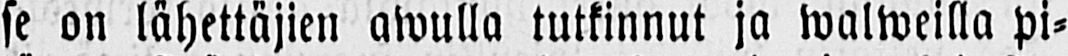se on lähettäjien awulla tutkinnut ja walweilla pi-
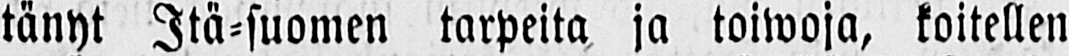tänyt Itä-suomen tarpeita ja toiwoja, koitellen
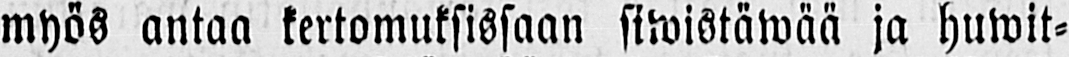myös antaa kertomuksissaan siwistäwää ja huwit-
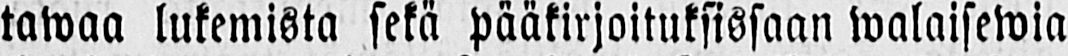tawaa lukemista sekä pääkirjoituksissaan walaisewia
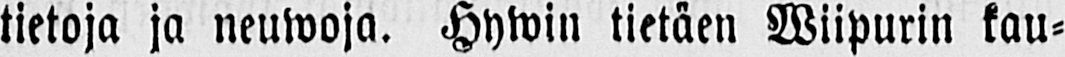tietoja ja neuwoja. Hywin tietäen Wiipurin kau-
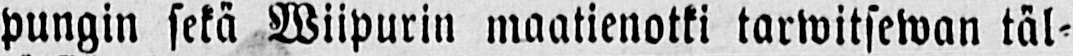pungin sekä Wiipurin maatienotki tarwitsewan täl-
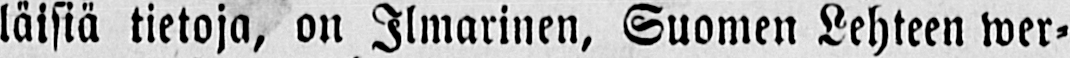laisia tietoja, on Ilmarinen, Suomen Lehteen wer-
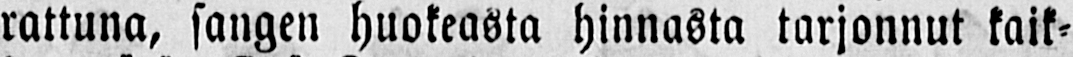rattuna, sangen huokeasta hinnasta tarjonnut kaik-
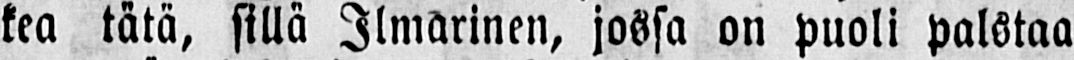kea tätä, sillä Ilmarinen, jossa on puoli palstaa
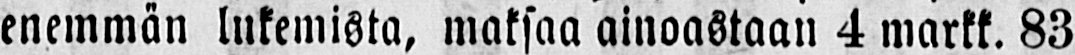enemmän lukemista, maksaa ainoastaan 4 markk. 83
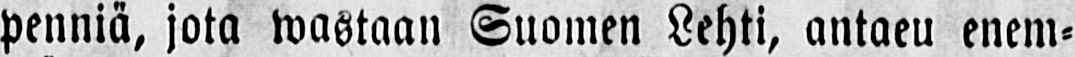penniä, jota wastaan Suomen Lehti, antaeu enem-
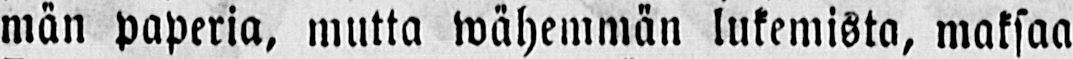män paperia, mutta wähemmän lukemista, maksaa
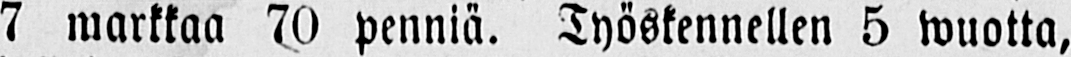7 markkaa 70 penniä. Työskennellen 5 wuotta,
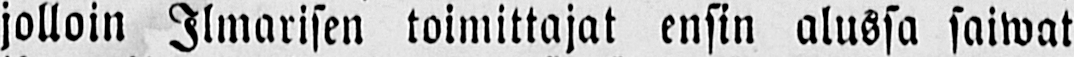jolloin Ilmarisen toimittajat ensin alussa saiwat
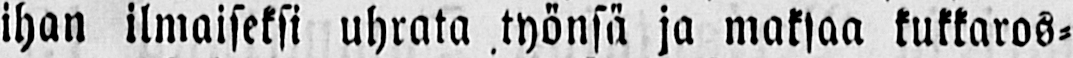ihan ilmaiseksi uhrata työnsä ja maksaa kukkaros-
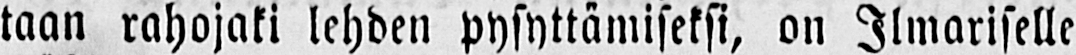taan rahojaki lehden pysyttämiseksi, on Ilmariselle
